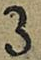3
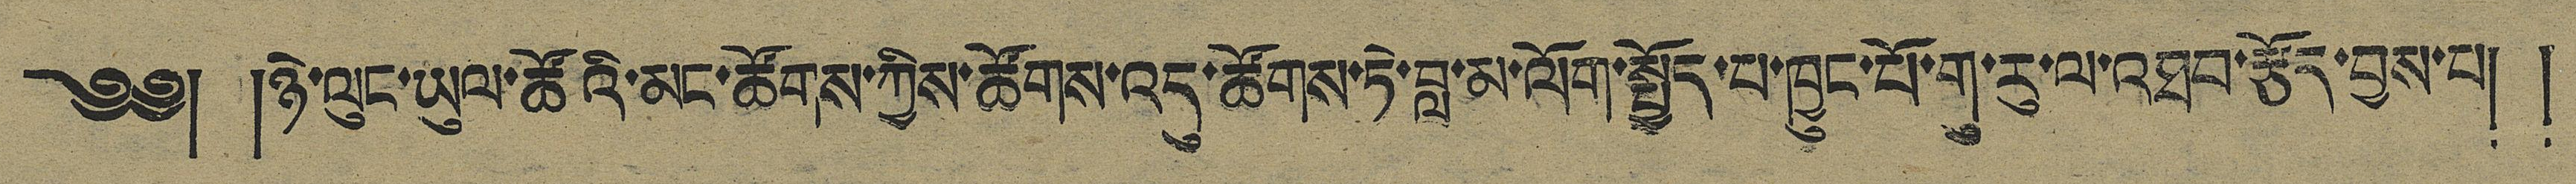༄༅། །ཉེ་ལུང་ཡུལ་ཚོའི་མང་ཚོགས་ཀྱིས་ཚོགས་འདུ་ཚོགས་ཏེ་བླ་མ་ལོག་སྤྱོད་པ་ཁྱུང་པོ་གུ་རུ་ལ་འཐབ་རྩོད་བྱས་པ། །
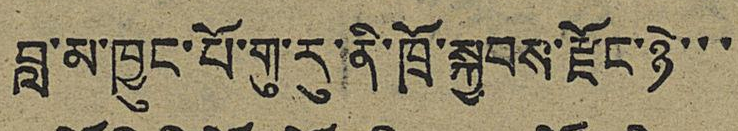བླ་མ་ཁྱུང་པོ་གུ་རུ་ནི་ཁྲོ་སྐྱབས་རྫོང་ཉེ་་་
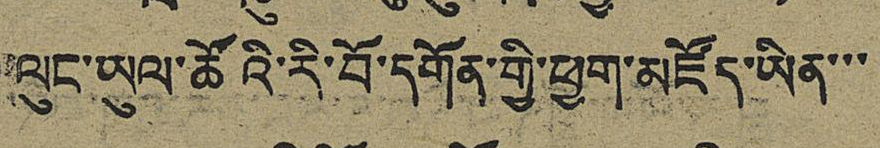ལུང་ཡུལ་ཚོའི་རི་བོ་དགོན་གྱི་ཕྱག་མཛོད་ཡིན་་་
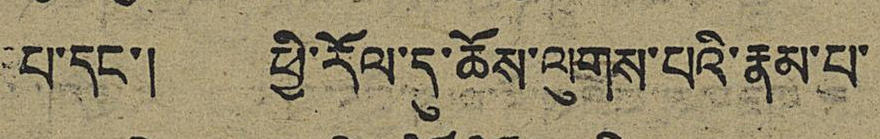པ་དང་། ཕྱི་རོལ་དུ་ཆོས་ལུགས་པའི་རྣམ་པ་
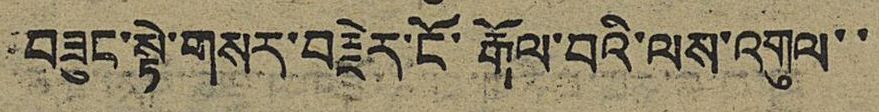བཟུང་སྟེ་གསར་བརྗེར་ངོ་རྒོལ་བའི་ལས་འགུལ་་
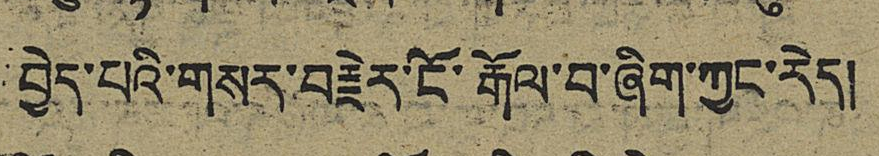བྱེད་པའི་གསར་བརྗེར་ངོ་རྒོལ་བ་ཞིག་ཀྱང་རེད།
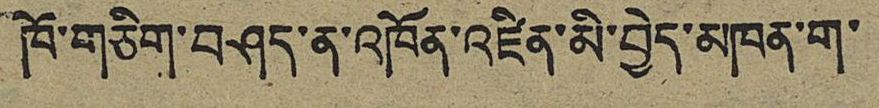ཁོ་གཅིག་བཤད་ན་འཁོན་འཛིན་མི་བྱེད་མཁན་ག་
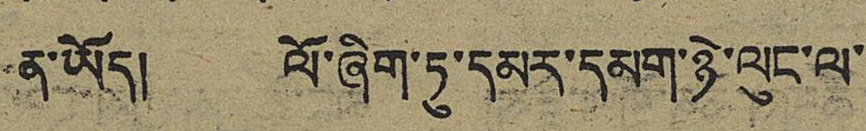ན་ཡོད། ལོ་ཞིག་ཏུ་དམར་དམག་ཉེ་ལུང་ལ་
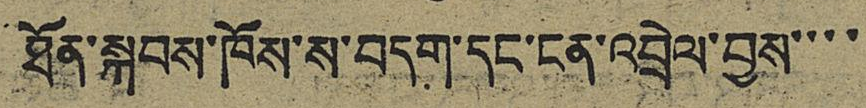ཐོན་སྐབས་ཁོས་ས་བདག་དང་ངན་འབྲེལ་བྱས་་་་
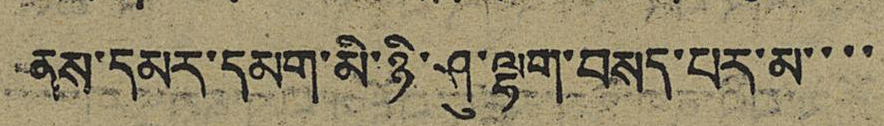ནས་དམར་དམག་མི་ཉི་ཤུ་ལྷག་བསད་པར་མ་་་་
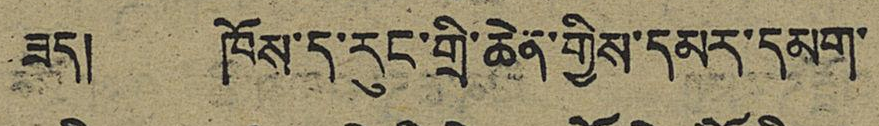ཟད། ཁོས་ད་རུང་གྲི་ཆེན་གྱིས་དམར་དམག་
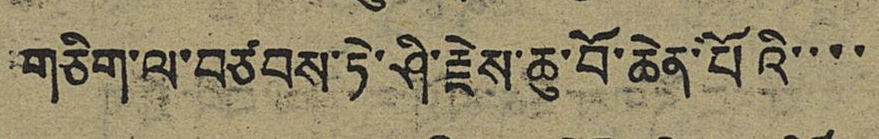གཅིག་ལ་བཙབས་ཏེ་ཤི་རྗེས་ཆུ་བོ་ཆེན་པོའི་་་་
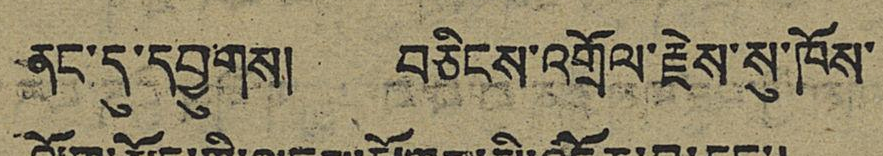ནང་དུ་དབྱུགས། བཅིངས་འགྲོལ་རྗེས་སུ་ཁོས་
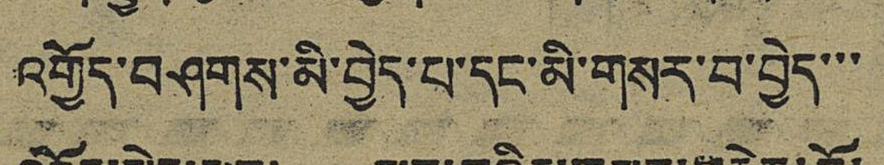འགྱོད་བཤགས་མི་བྱེད་པ་དང་མི་གསར་བ་བྱེད་་་
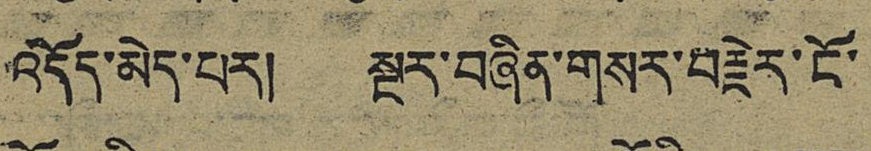འདོད་མེད་པར། སྔར་བཞིན་གསར་བརྗེར་ངོ་
